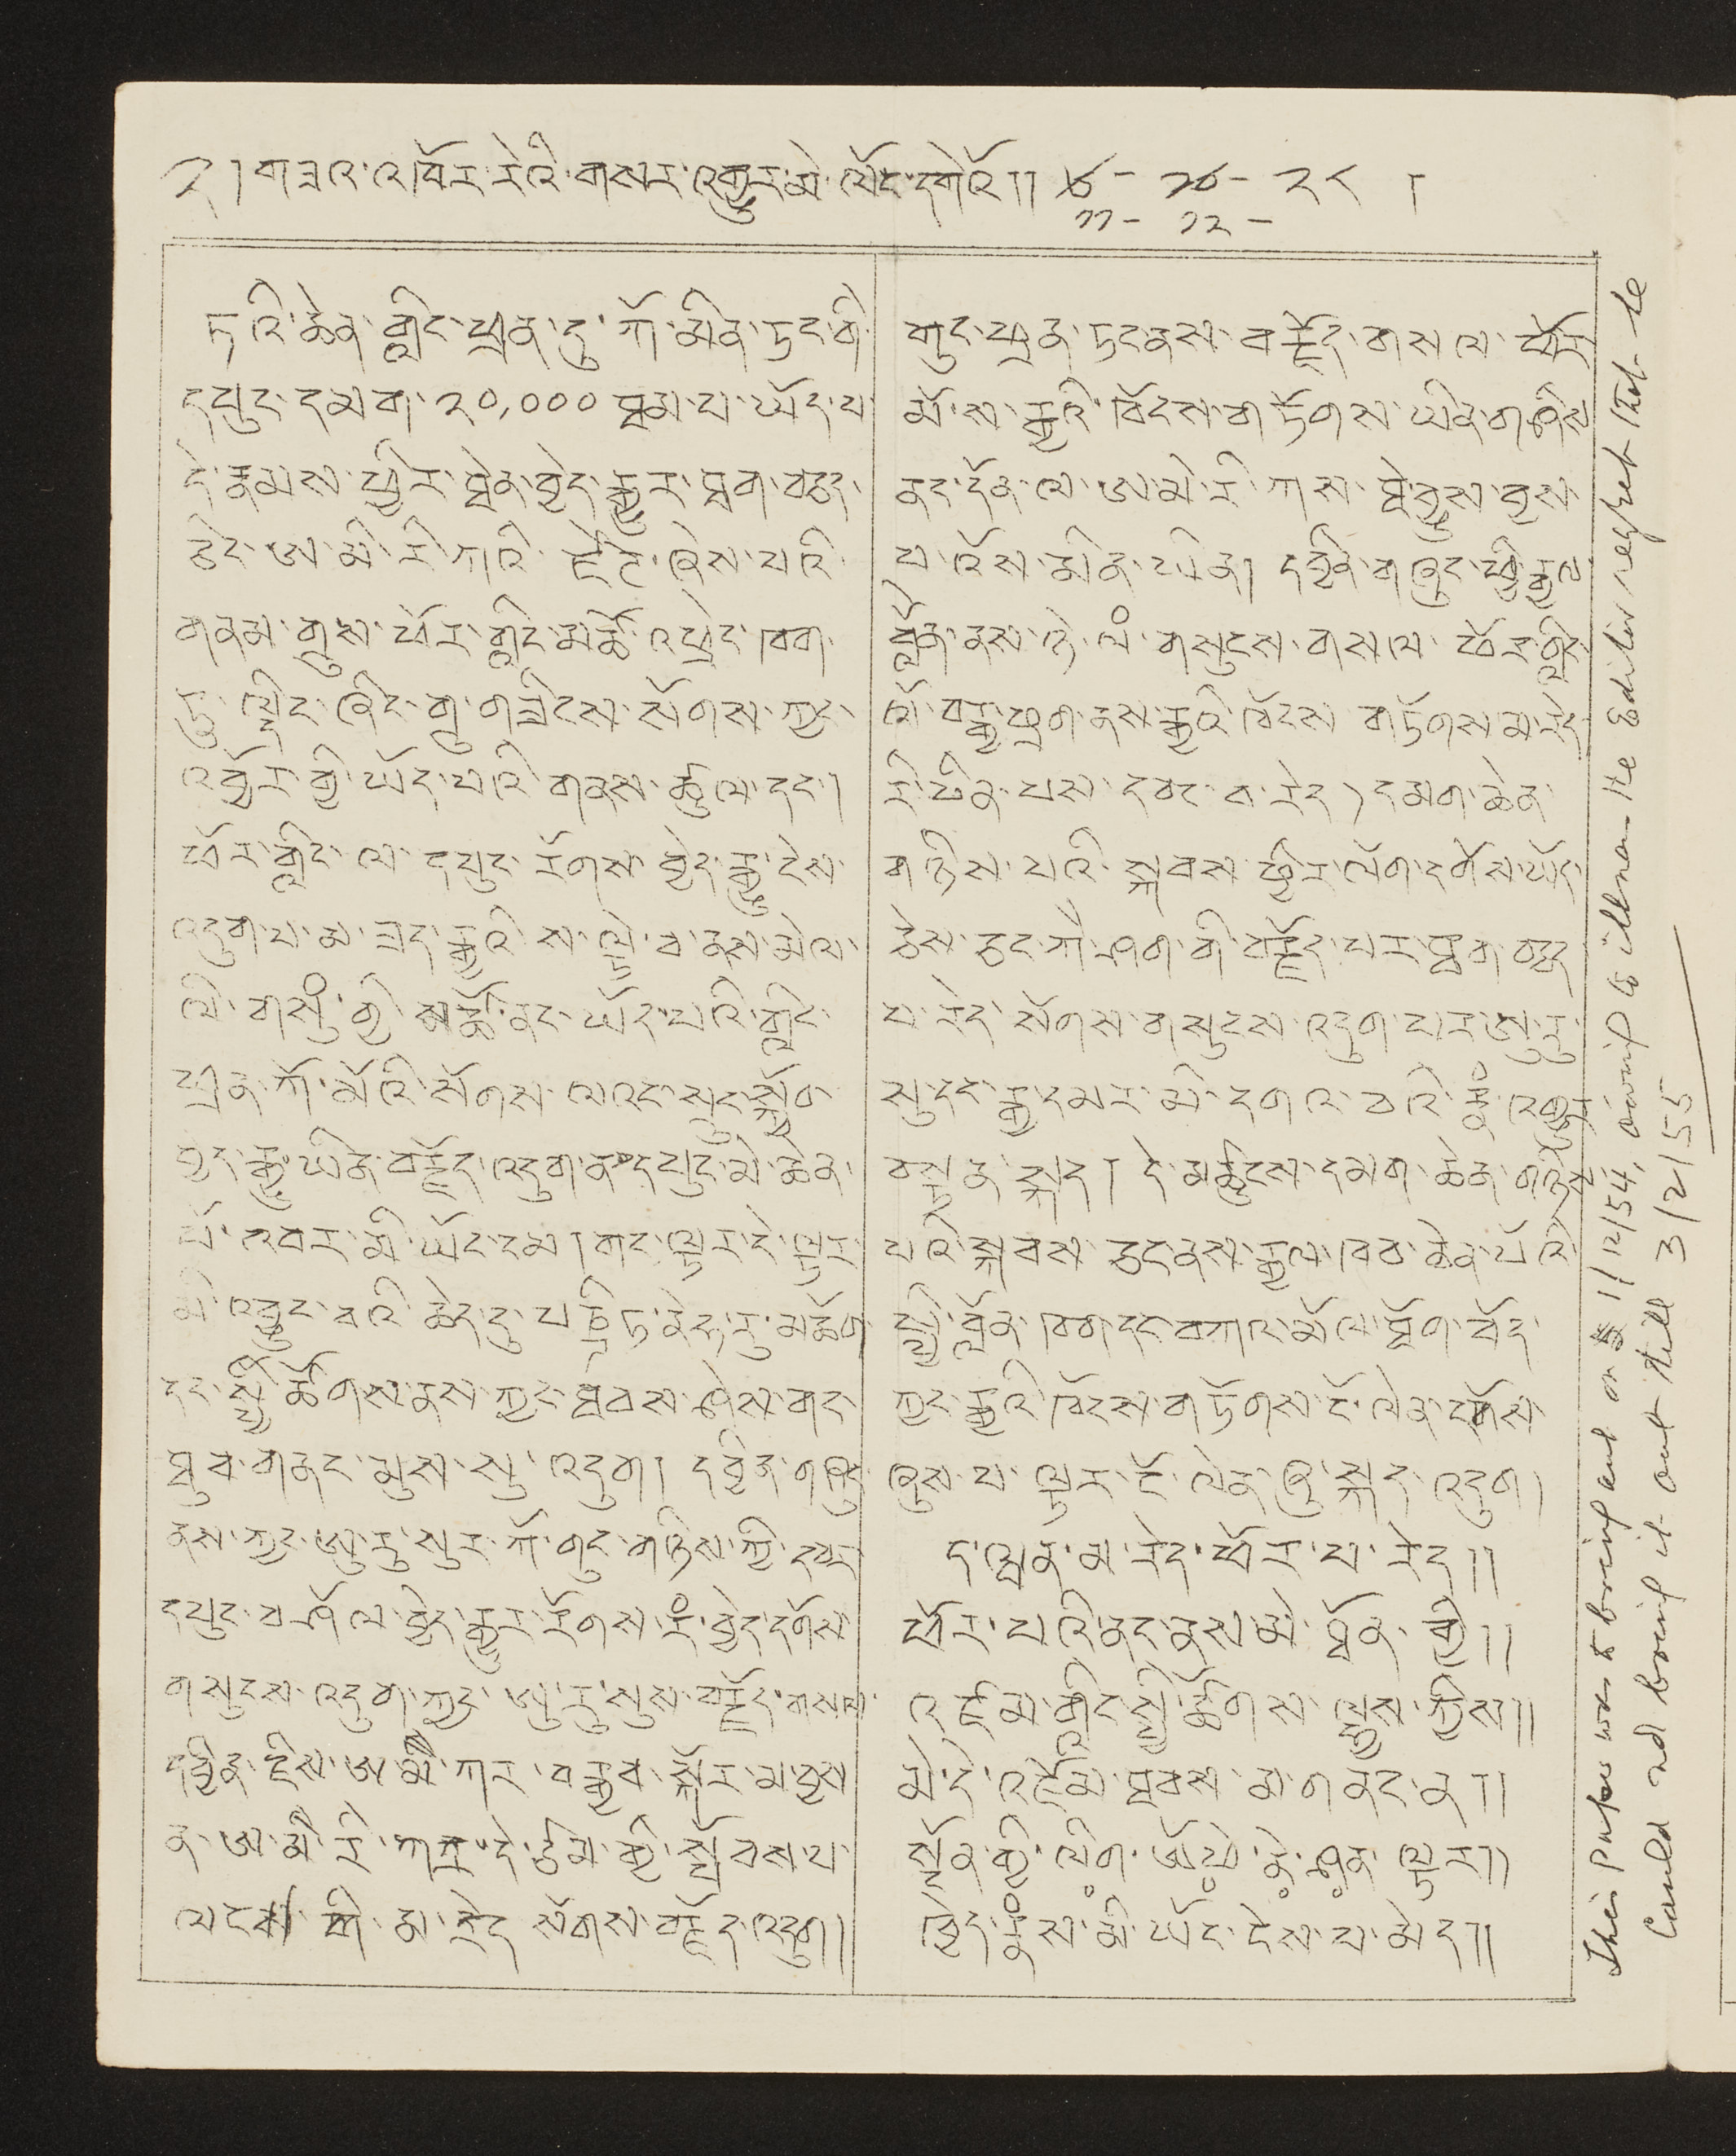༢ ། གཟའ་འཁོར་རེའི་གསར་འགྱུར་མེ་ལོང་དགེའོ།།
༦-༡༠-༢༨ །
༡༡- ༡༢-
ཏའི་ཆེན་གླིང་ཕྲན་དུ་ཀོ་མིན་ཏང་གི་
དཔུང་དམག་༢༠,༠༠༠ ཐམ་པ་ཡོད་པ་
དེ་རྣམས་ཕྱིར་ཐེན་བྱེད་རྒྱུར་ཐག་བཅད་
ཅིང་ཨ་མི་རི་ཀའི་རྫེཊེ་ཞེས་པའི་
གནས་གྲུས་ཕོར་གླིང་མཚོ་འཕྲེང་ཁག་
ཏུ་ལྡིང་ཞིང་གྲུ་གཟིངས་སོགས་ཀྱས་
འབྱོར་ཀྱི་ཡོད་པའི་གནས་ཚུལ་དང་།
ཕོར་གླིང་ལ་དཔུང་རོགས་བྱེད་རྒྱུ་ངེས་
འདུག་མ་ཟད་རྒྱའི་ས་ལྟེ་བ་ནས་མེལ་
ལི་གསུཾ་གྱི་མཚོ་ནས་ཡོད་པའི་གླིང་
ཕྲན་ཀོ་མོའོ་སོགས་ལའང་སྲུང་སྐྱོབ་
བྱད་རྒྱུ་ཡིན་བརྗོད་འདུག་ན་དཔུང་མི་ཆེན་
པོ་འབར་མི་ཡོང་ངམ། གང་ལྟར་དེ་ལྟར་
མི་འབྱུང་བའི་ཆེད་དུ་པཎྜིཏ་ནེཧ་རུ་མཆོག་
དང་སྤྱི་ཚོགས་ནས་ཀྱང་ཐབས་ཤེས་གང་
ཐུབ་གནང་མུས་སུ་འདུག། ། དབྱིན་གཞུང
ནས་ཀྱང་ཨུ་རུ་སུར་ཀོ་གུང་གཉིས་ཀྱི་དཔར་
དཔུང་བཤོལ་བྱེད་རྒྱུར་རོགས་རཾ་བྱེད་དགོས་
གསུངས་འདུག་ཀྱང་ཨུ་རུ་སུས་བརྗོད་གསལ་
དབྱིན་རྗིས་ཨ་མཻ་ཀར་བརྒྱས་སྐོར་མ་བྱས
ན་ཨ་མི་རི་ཀར་དེ་ཙམ་གྱི་སྤོབས་པ་
ལངས་གི་མ་རེད སོགས་བརྗོད་འདུག །
གུང་ཕྲན་ཏང་ནས་བརྗོད་གསལ་ཕོར་
མོ་ས་རྒྱའི་ཁོངས་གཏོགས་ཡིན་གཤིས
ནང་དོན་ལ་ཨ་མི་རི་ཀས་ཐེ་བྱུས་བྱས་
པ་འོས་མིན་ཡིན། དབྱིན་གཞུང་ཕྱི་རྒྱལ་
བློན་ནས་ཉེ་ལཾ་གསུངས་གསལ་ཕོར་གླིང་
ལོ་བརྒྱ་ཕྲག་ནས་རྒྱའི་ཁོངས་གཏོགས་མ་རེད་
རི་ཕིན་པས་དབང་རེད། དམག་ཆེན་
གཉིས་པའི་སྐབས་ཕྱིར་ལོག་དགོས་ཡོད་
ཅེས་ཅང་ཀཻ་ཤག་གི་བརྗོད་པར་ཐག་བཅད་
པ་རེད་སོགས་གསུངས་འདུག་པར་ཨུ་རུ་
སུ་དང་རྒྱ་དམར་མི་དགའ་བའི་རྣཾ་འགྱུར་
བསྟན་སྐད། དེ་མཚུངས་དམག་ཆེན་གཉིས་
པའི་སྐབས་ཅང་ནས་རྒྱལ་ཐབ་ཆེན་པོའི་
སྤྱི་བློན་ཁག་དང་བཀའ་མོལ་ཐོག་བོད་
ཀྱང་རྒྱའི་ཁོངས་གཏོགས་ངོ་ལེན་དགོས་
ཞུས་པ་ལྟར་ངོ་ལེན་ཞུ་སྐད་འདུག།།
ད་ཝན་མ་རེད་ཕོར་པ་རེད།།
ཕོར་པའི་ནང་ནས་མེ་ཐོན་གྱི།།
འཛམ་གླིང་སྤྱི་ཚོགས་ལྷས་ཀྱིས།།
མེ་དེ་འཇོམ་ཐབས་མ་གནང་ན།།
སྔོན་གྱི་ལིག་
ཾ
ཨོཕེ་
ཾ
ནེ་
ཾ
ཤན་
ཾ
ལྟར།།
ཁྱེད་རྣཾས་མི་ཡོང་ངེས་པ་མེད།།
This paper was to bring and on 5 1/12/54, owning to illna the editor reghet that be
could not bring it out still 3/2/55
